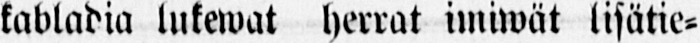kabladia lukewat herrat imiwät lisätie-
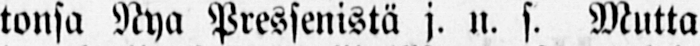tonsa Nya Pressenistä j. n. s. Mutta
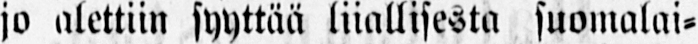jo alettiin syyttää liiallisesta suomalai-
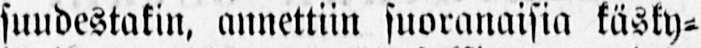suudestakin, annettiin suoranaisia käsky-
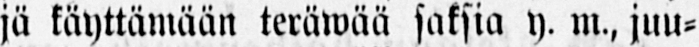jä käyttämään teräwää saksia y. m., juu-
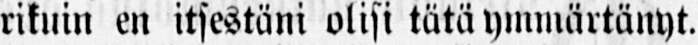rikuin en itsestäni olisi tätä ymmärtänyt.
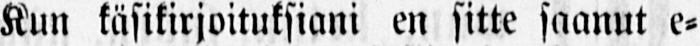Kun käsikirjoituksiani en sitte saanut e-
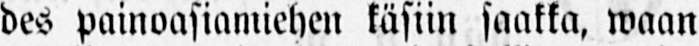des painoasiamiehen käsiin saakka, waan
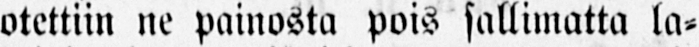otettiin ne painosta pois sallimatta la-
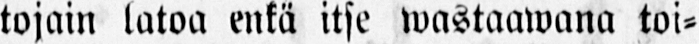tojain latoa enkä itse wastaawana toi-
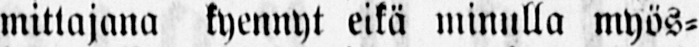mittajana kyennyt eikä minulla myös-
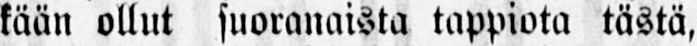kään ollut suoranaista tappiota tästä,
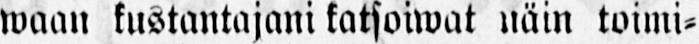waan kustantajani katsoiwat näin toimi-
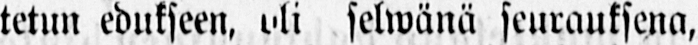tetun edukseen, oli selwänä seurauksena,
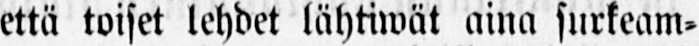että toiset lehdet lähtiwät aina surkeam-
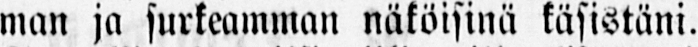man ja surkeamman näköisinä käsistäni.
